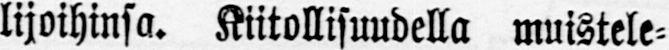lijoihinsa. Kiitollisuudella muistele-
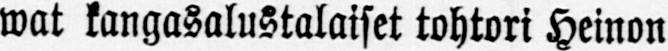wat kangasalustalaiset tohtori Heinon
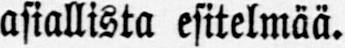asiallista esitelmää.
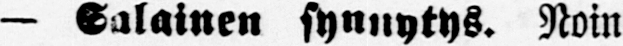— Salainen synnytys. Noin
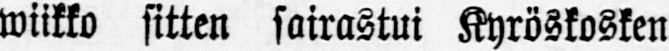wiikko sitten sairastui Kyröskosken
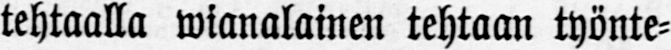tehtaalla wianalainen tehtaan työnte-
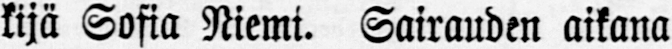kijä Sofia Niemi. Sairauden aikana
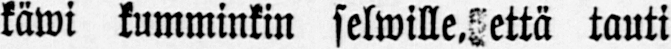käwi kumminkin selville, että tauti
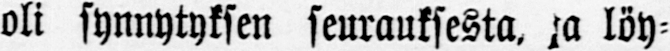oli synnytyksen seurauksesta, ja löy-
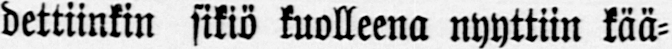dettiinkin sikiö kuolleena nyyttiin kää-
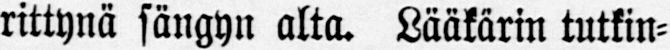rittynä sängyn alta. Lääkärin tutkin-
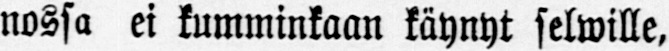nossa ei kumminkaan käynyt selwille,
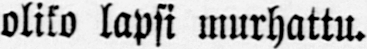oliko lapsi murhattu.
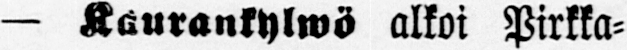— Kaurankylwö alkoi Pirkka-
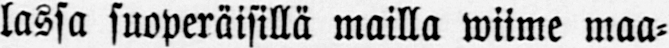lassa suoperäisillä mailla wiime maa-
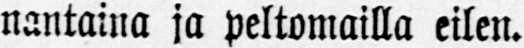nantaina ja peltomailla eilen.
